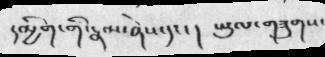དམྱིག་གི་རྣམ་ཤེས་དང་། ཡུལ་གཟུགས་
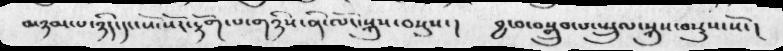མཉམ་པ་ཉིད་དང་སོ་སོར་རྟོག་པ་གཉིས་ནི་ལོང་སྐུས་བསྡུས་།  བྱ་བ་བསྒྲུབ་པ་སྤྲུལ་སྐུས་བསྡུས་སོ་།
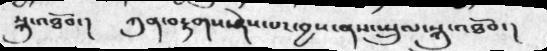སྐུ་འཐོབ་།   ཀུན་བརྟགས་ཤེས་པར་བྱས་ནས་སྤྲུལ་སྐུ་འཐོབ་།
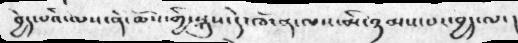བྱེད་པའི་ལས་ནི་ཆོས་གྱི་སྐུས་དེ་ཁོ་ན་ལས་མི་ཉམས་པར་བྱད་ལ་།
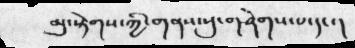མུ་སྟེགས་ཀྱི་གནས་སུ་གཤེགས་པ་དང་།
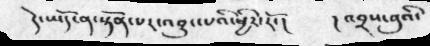དེ་ཡོད་ན་སྟོན་པར་འབྱུང་པའི་ཕྱིར་རོ་།   །འབྲས་བུའི་
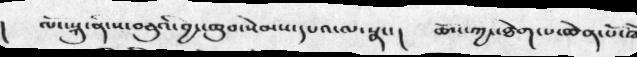།   ལོང་སྐུ་ནི་ས་བཅུའི་བྱང་ཆུབ་སེམས་དཔའ་ལ་སྣང་།  ཆོས་ཀྱང་ཐེག་པ་ཆེན་པོ་ཁོ
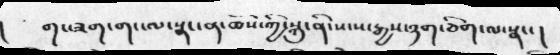།   གང་ཟག་གང་ལ་སྣང་ན་ཆོས་ཀྱི་སྐུ་ནི་སངས་རྒྱས་ཉག་ཅིག་ལ་སྣང་།
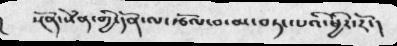།   སྔོན་སེཾན་གྱི་དོན་ལ་རྩོལ་བ་མ་བཏང་པའི་ཕྱིར་རོ་།
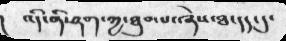འདི་ནི་ཤག་ཀྱ་ཐུབ་པ་ཞེས་ཐ་དད་དུ་
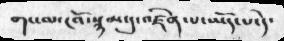གང་ལ་ངའོ་སྙམ་དུ་འཛིན་པ་ཡོད་པ་དེ་
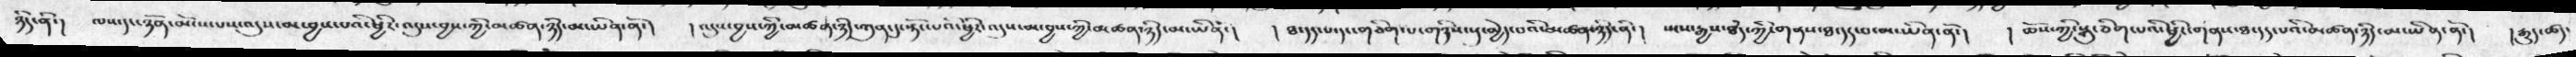ཉིད་ནི་།  ལས་དང་ཉོན་མོངས་པས་འདུས་མ་བྱས་པི་ཕྱིར་འདུས་བྱས་ཀྱི་མཚན་ཉིད་མ་ཡིན་ནོ་།  །འདུས་བྱས་ཀྱི་མཚན་ཉིད་ཀུན་དུ་སྟོང་པའི་ཕྱིར་འདུས་མ་བྱས་ཀྱི་མཚན་ཉིད་མ་ཡིན་།  ཐ་དད་པ་དང་གཅིག་པ་གཉིས་སུ་མྱེད་པའི་མཚན་ཉིད་ནི་།  སངས་རྒྱས་ཐཾད་ཀྱི་གནས་ཐ་དད་པ་མ་ཡིན་ནོ་།  །ཆོས་ཀྱི་སྐུ་ཅིག་པའི་ཕྱིར་གནས་ཐ་དད་པའི་མཚན་ཉིད་མ་ཡིན་ནོ་།  །རྒྱུད་ཚད་
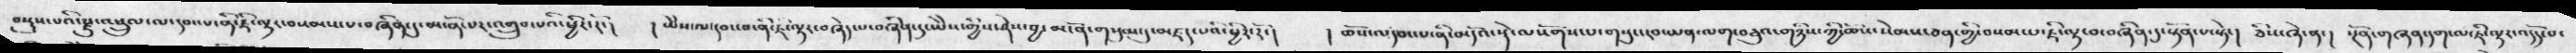བསྡུས་པའི་རྫུ་འཕྲུལ་ལ་དབང་པ་ནི་ཇི་ལྟར་བསམས་པ་བཞིན་དུ་མངོན་པར་འགྲུབ་པའི་ཕྱིར་རོ་།  །ཡཻས་ལ་དབང་བ་ནི་ཇི་ལྟར་བཞེད་པ་བཞིན་དུ་ཡཻས་གྱིས་ཤེས་བྱ་མངོན་གསུམ་དུ་མཛད་པའི་ཕྱིར་རོ་།  །ཆོས་ལ་དབང་པ་ནི་མདོའ་སྡེ་ལསོགས་པ་གསུང་རབ་ཡན་ལག་བཅུའ་གཉིས་ཀྱི་ཆོས་སེམས་ཅན་གྱི་བསམ་པ་ཇི་ལྟ་བ་བཞིན་དུ་སྟོན་པ་སྟེ་།  ཅིས་ཞེ་ན་།  སྔོན་གཞན་དག་ལ་ཇི་ལྟར་འདོད་པ་
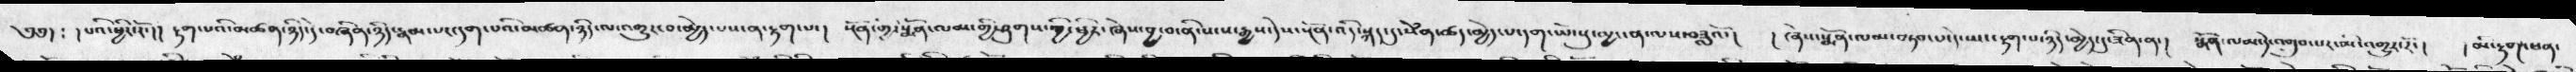༄༅། ༴ ། པའི་ཕྱིར་རོ་།།  རྟག་པའི་མཚན་ཉིད་དེ་བཞིན་ཉིད་རྣམ་པར་དག་པའི་མཚན་ཉིད་ལ་འགྱུར་བ་མྱེད་པས་ན་རྟག་པ་།  སྔོན་གྱི་སྨོན་ལམ་གྱི་ཤུགས་ཀྱི་ཕྱིར་ཞེས་བྱ་བ་ནི་སངས་རྒྱས་དེས་སྔོན་འདི་སྐད་དུ་སེཾན་ཚད་མྱེད་པ་དག་ཡོངསུ་མྱ་ངན་ལས་བཟླའོ་།  ། ཞེས་སྨོན་ལམ་བཏབ་པ་དེ་ཡང་རྟག་པ་ཉིད་མྱེད་དུ་ཟིན་ན་།  སྨོན་ལམ་དེ་འགྲུབ་པར་མི་འགྱུར་རོ་།   མི་རྟག་ཕན་
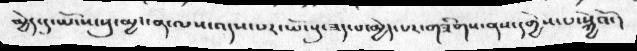མྱེད་དུ་ཡོངས་སུ་མྱང་ན་ལས་འདས་པར་ཡོངསུ་ཟད་པ་མྱེད་པར་གཟིགས་ནས་དགྱེས་པ་སྐྱེའོ་།
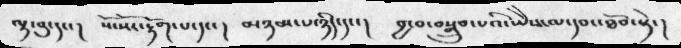ལྟ་བུ་དང་།  སོ་སོར་རྟོག་པ་དང་།  མཉམ་པ་ཉིད་དང་། བྱ་བ་བསྒྲུབ་པའི་ཡེེས་ལ་དབང་ཐོབ་སྟེ་།
